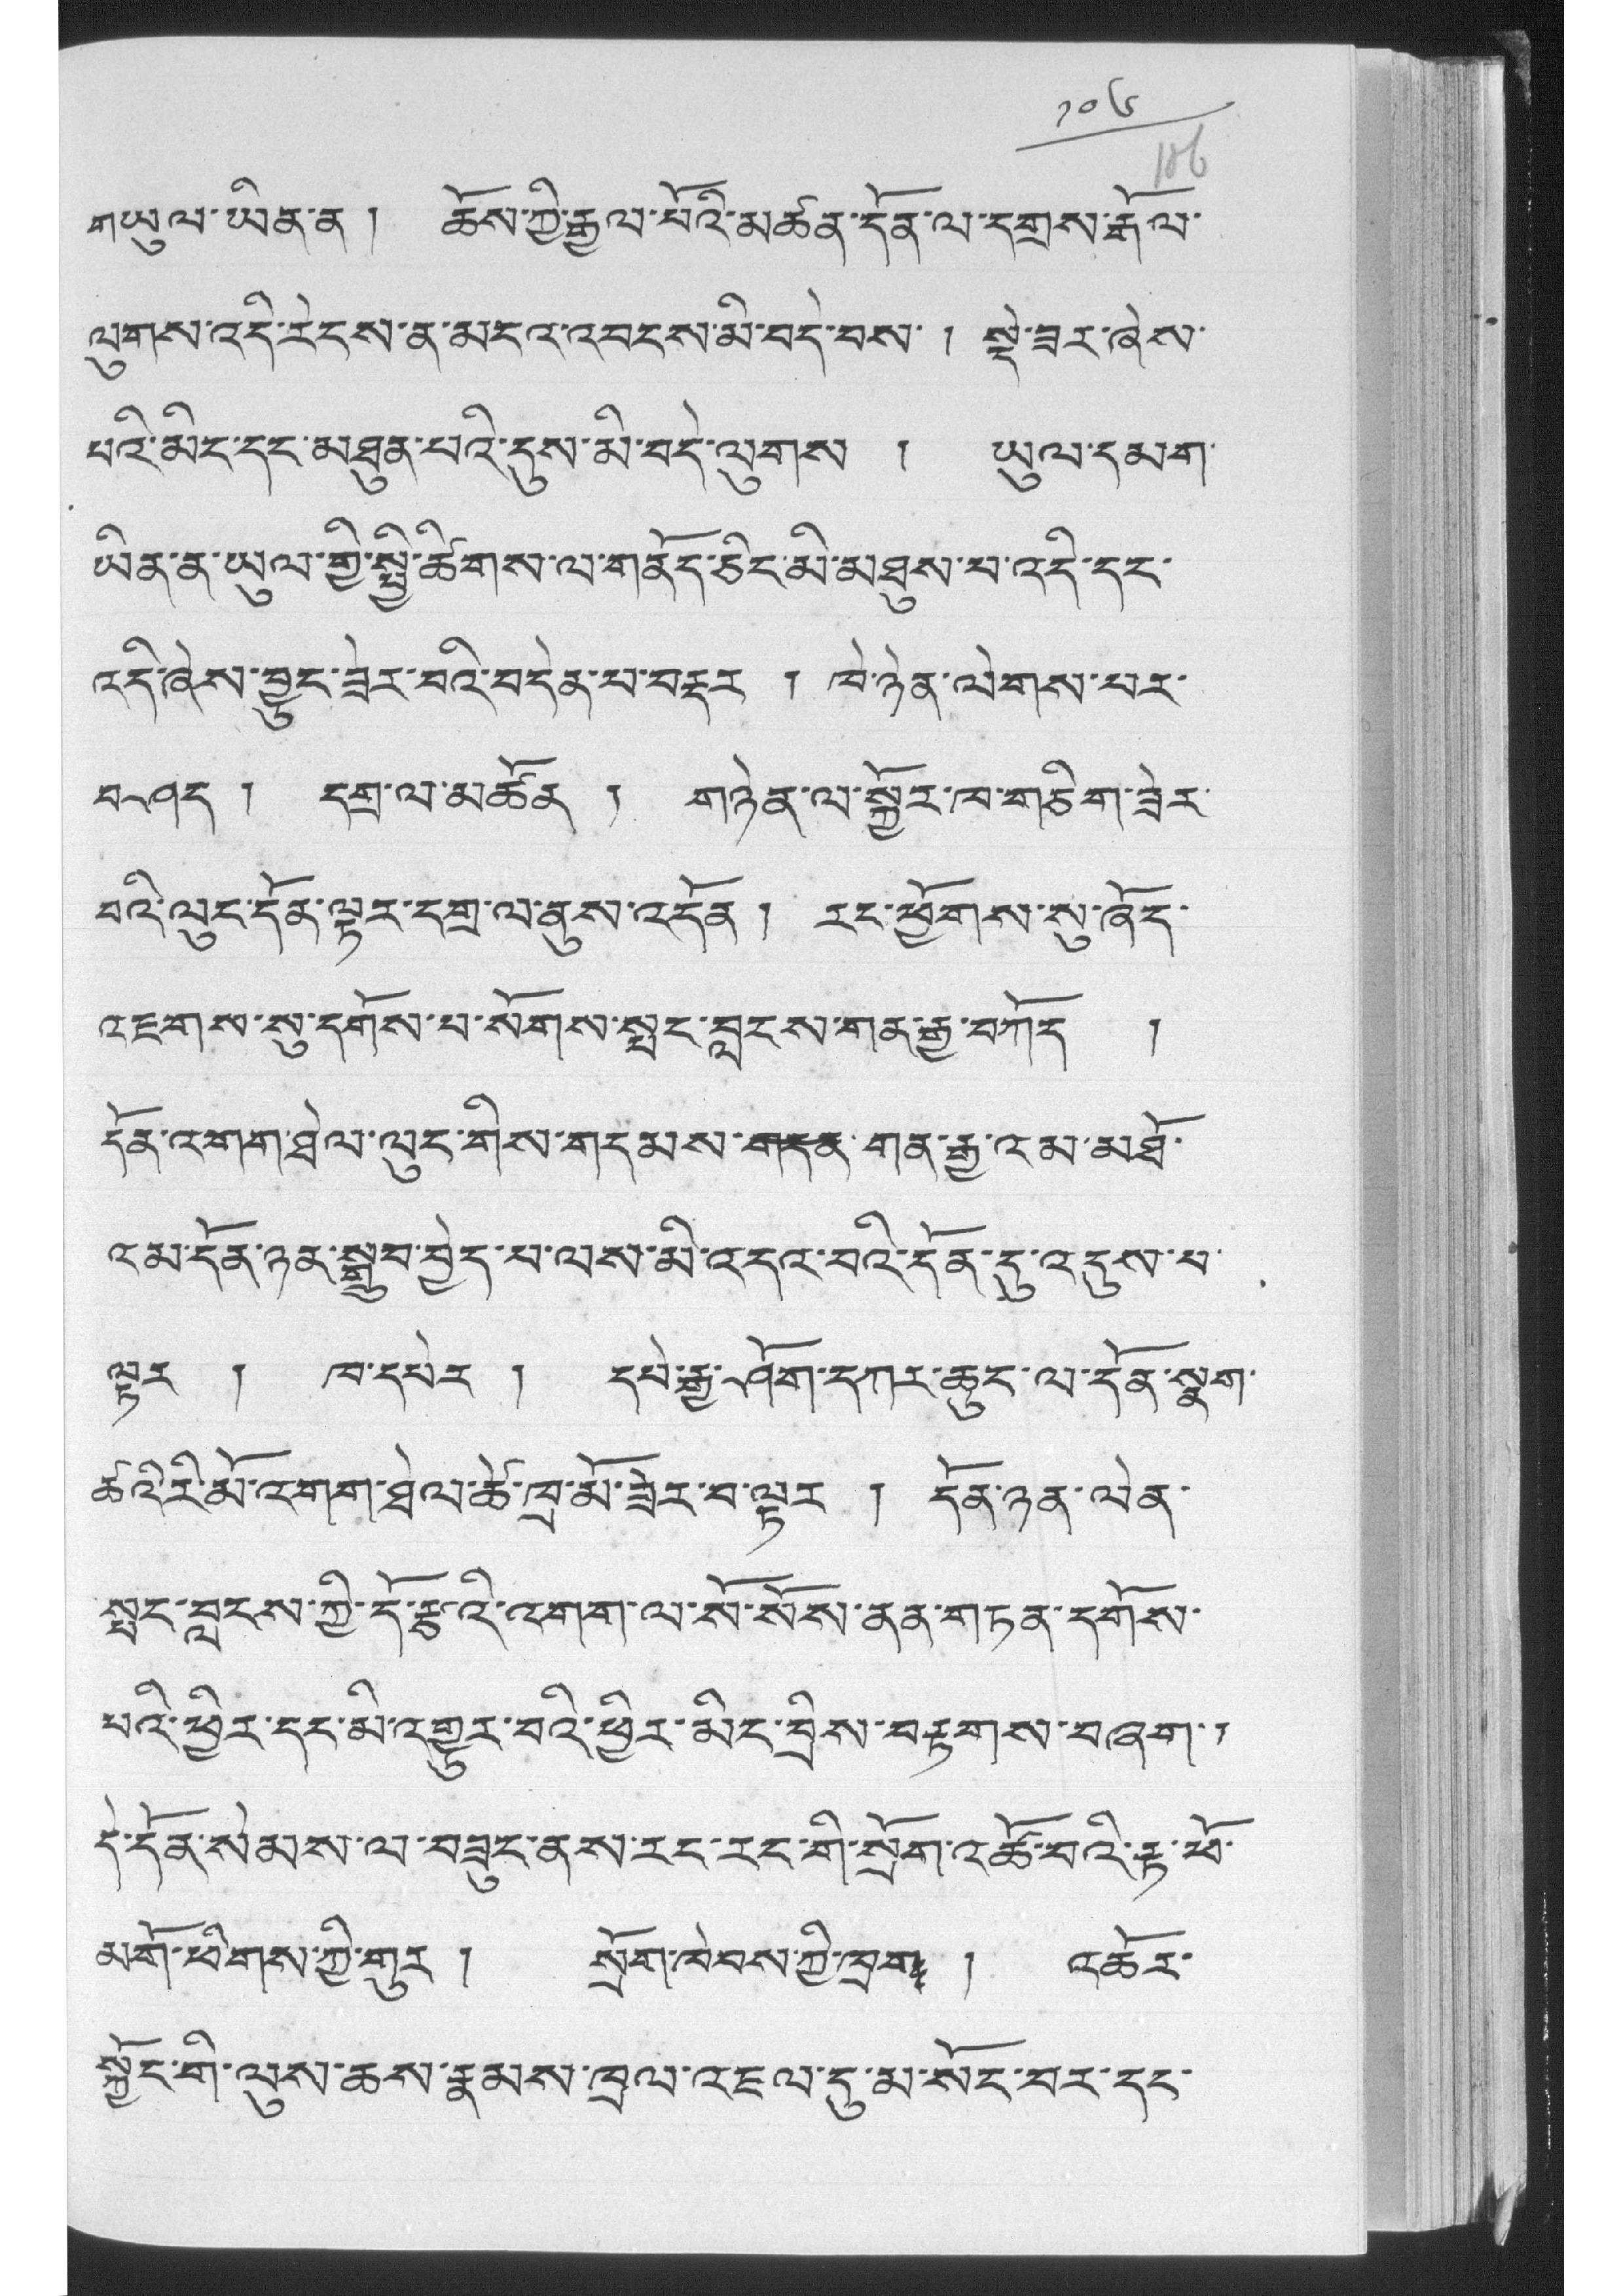༡༠༦
གཡུལ་ཡིན་ན ། ཆོས་ཀྱི་རྒྱལ་པོའི་མཚན་དོན་ལ་དགྲས་རྒོལ་
ལུགས་འདི་རེངས་ན་མདའ་འབངས་མི་བདེ་བས་ ། སྡེ་ཟར་ཞེས་
པའི་མིང་དང་མཐུན་པའི་དུས་མི་བདེ་ལུགས ། ཡུལ་དམག་
ཡིན་ན་ཡུལ་གྱི་སྤྱི་ཚིགས་ལ་གནོད་ཅིང་མི་མཐུས་པ་འདི་དང་
འདི་ཞེས་བྱུང་ཟེར་བའི་བདེན་པ་བརྡར ། ཁེ་ཉེན་ལེགས་པར་
བཤད ། དགྲ་ལ་མཚོན ། གཉེན་ལ་སྐྱོར་ལ་གཅིག་ཟེར་
བའི་ལུང་དོན་ལྟར་དགྲ་ལ་ནུས་འདོན ། རང་ཕྱོགས་སུ་ཞོད་
འཇགས་སུ་དགོས་པ་སོགས་སྤང་བླངས་གན་རྒྱ་བཀོད །
དོན་འགག་ཐེལ་ལུང་གིས་གདམས་གདན་གན་རྒྱ་ལམ་མཐོ་
འམ་དོན་ཉན་སྒྲུབ་བྱེད་པ་ལས་མི་འདའ་བའི་དོན་དུ་འདུས་པ་
ལྟར ། ཁ་དཔེར ། དཔེ་རྒྱ་ཤོག་དཀར་ཆུང་ལ་དོན་སྣག་
ཚའི་རི་མོ་འགག་ཐེལ་ཚེ་ཁྲ་མོ་ཟེར་བ་ལྟར ། དོན་ཉན་ལེན་
སྤང་བླངས་ཀྱི་དོ་རྩའི་འགག་ལ་སོ་སོས་ནན་གཏན་དགོས་
པའི་ཕྱིར་དང་མི་འགྱུར་བའི་ཕྱིར་མིང་བྲིས་བརྟགས་བཞག་ །
དེ་དོན་སེམས་ལ་བཟུང་ནས་རང་རང་གི་སྲོག་འཚོ་བའི་རྟ་ཕོ་
མགོ་ཕིགས་ཀྱི་གུར ། སྲོག་ལེབས་ཀྱི་ཁྲག ། འཆོར་
སྐྱོང་ིག་ལུས་ཆས་རྣམས་ཁྲལ་འཇལ་དུ་མ་སོང་བར་དང་
